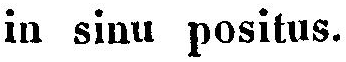in sinu positus.
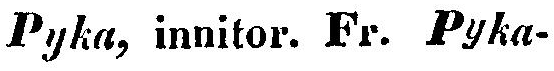Pyka, innitor. Fr. Pyka-
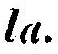la.
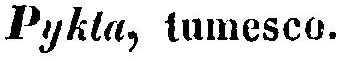Pykta, tumesco.
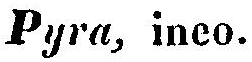Pyra, ineo.
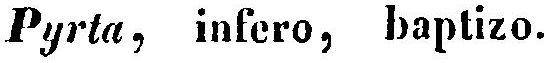Pyrta, infero, baptizo.
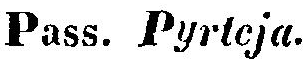Pass. Pyrteja.
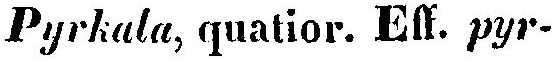Pyrkala, quatior. Eff. pyr-
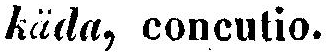käda, concutio.
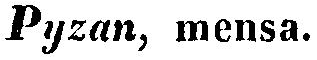Pyzan, mensa.
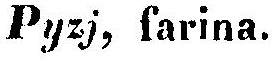Pyzj, farina.
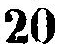20
